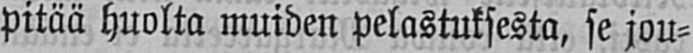pitää huolta muiden pelastuksesta, se jou-
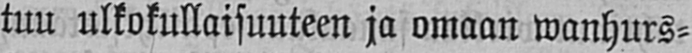tuu ulkokullaisuuteen ja omaan wanhurs-
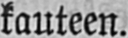kauteen.
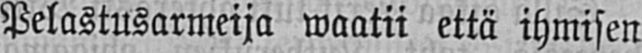Pelastusarmeija waatii että ihmisen
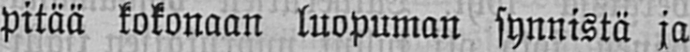pitää kokonaan luopuman synnistä ja
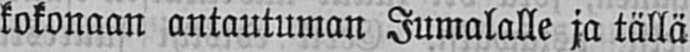kokonaan antautuman Jumalalle ja tällä
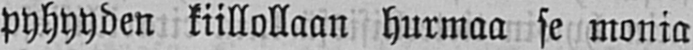pyhyyden kiillollaan hurmaa se monia
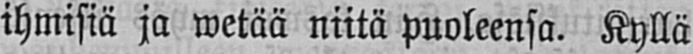ihmisiä ja wetää niitä puoleensa. Kyllä
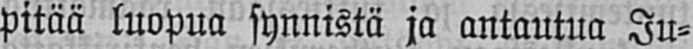pitää luopua synnistä ja antautua Ju-
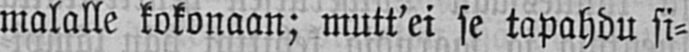malalle kokonaan; mutt'ei se tapahdu si-
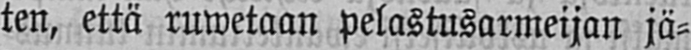ten, että ruwetaan pelastusarmeijan jä-
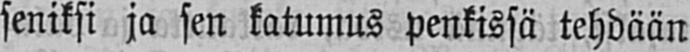seniksi ja sen katumus penkissä tehdään
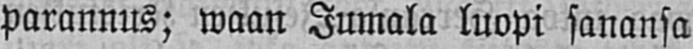parannus; waan Jumala luopi sanansa
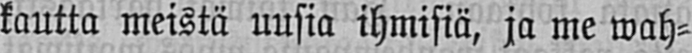kautta meistä uusia ihmisiä, ja me wah-
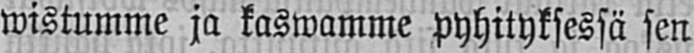wistumme ja kaswamme pyhityksessä sen
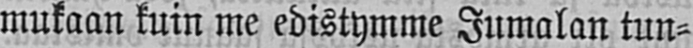mukaan kuin me edistymme Jumalan tun-
